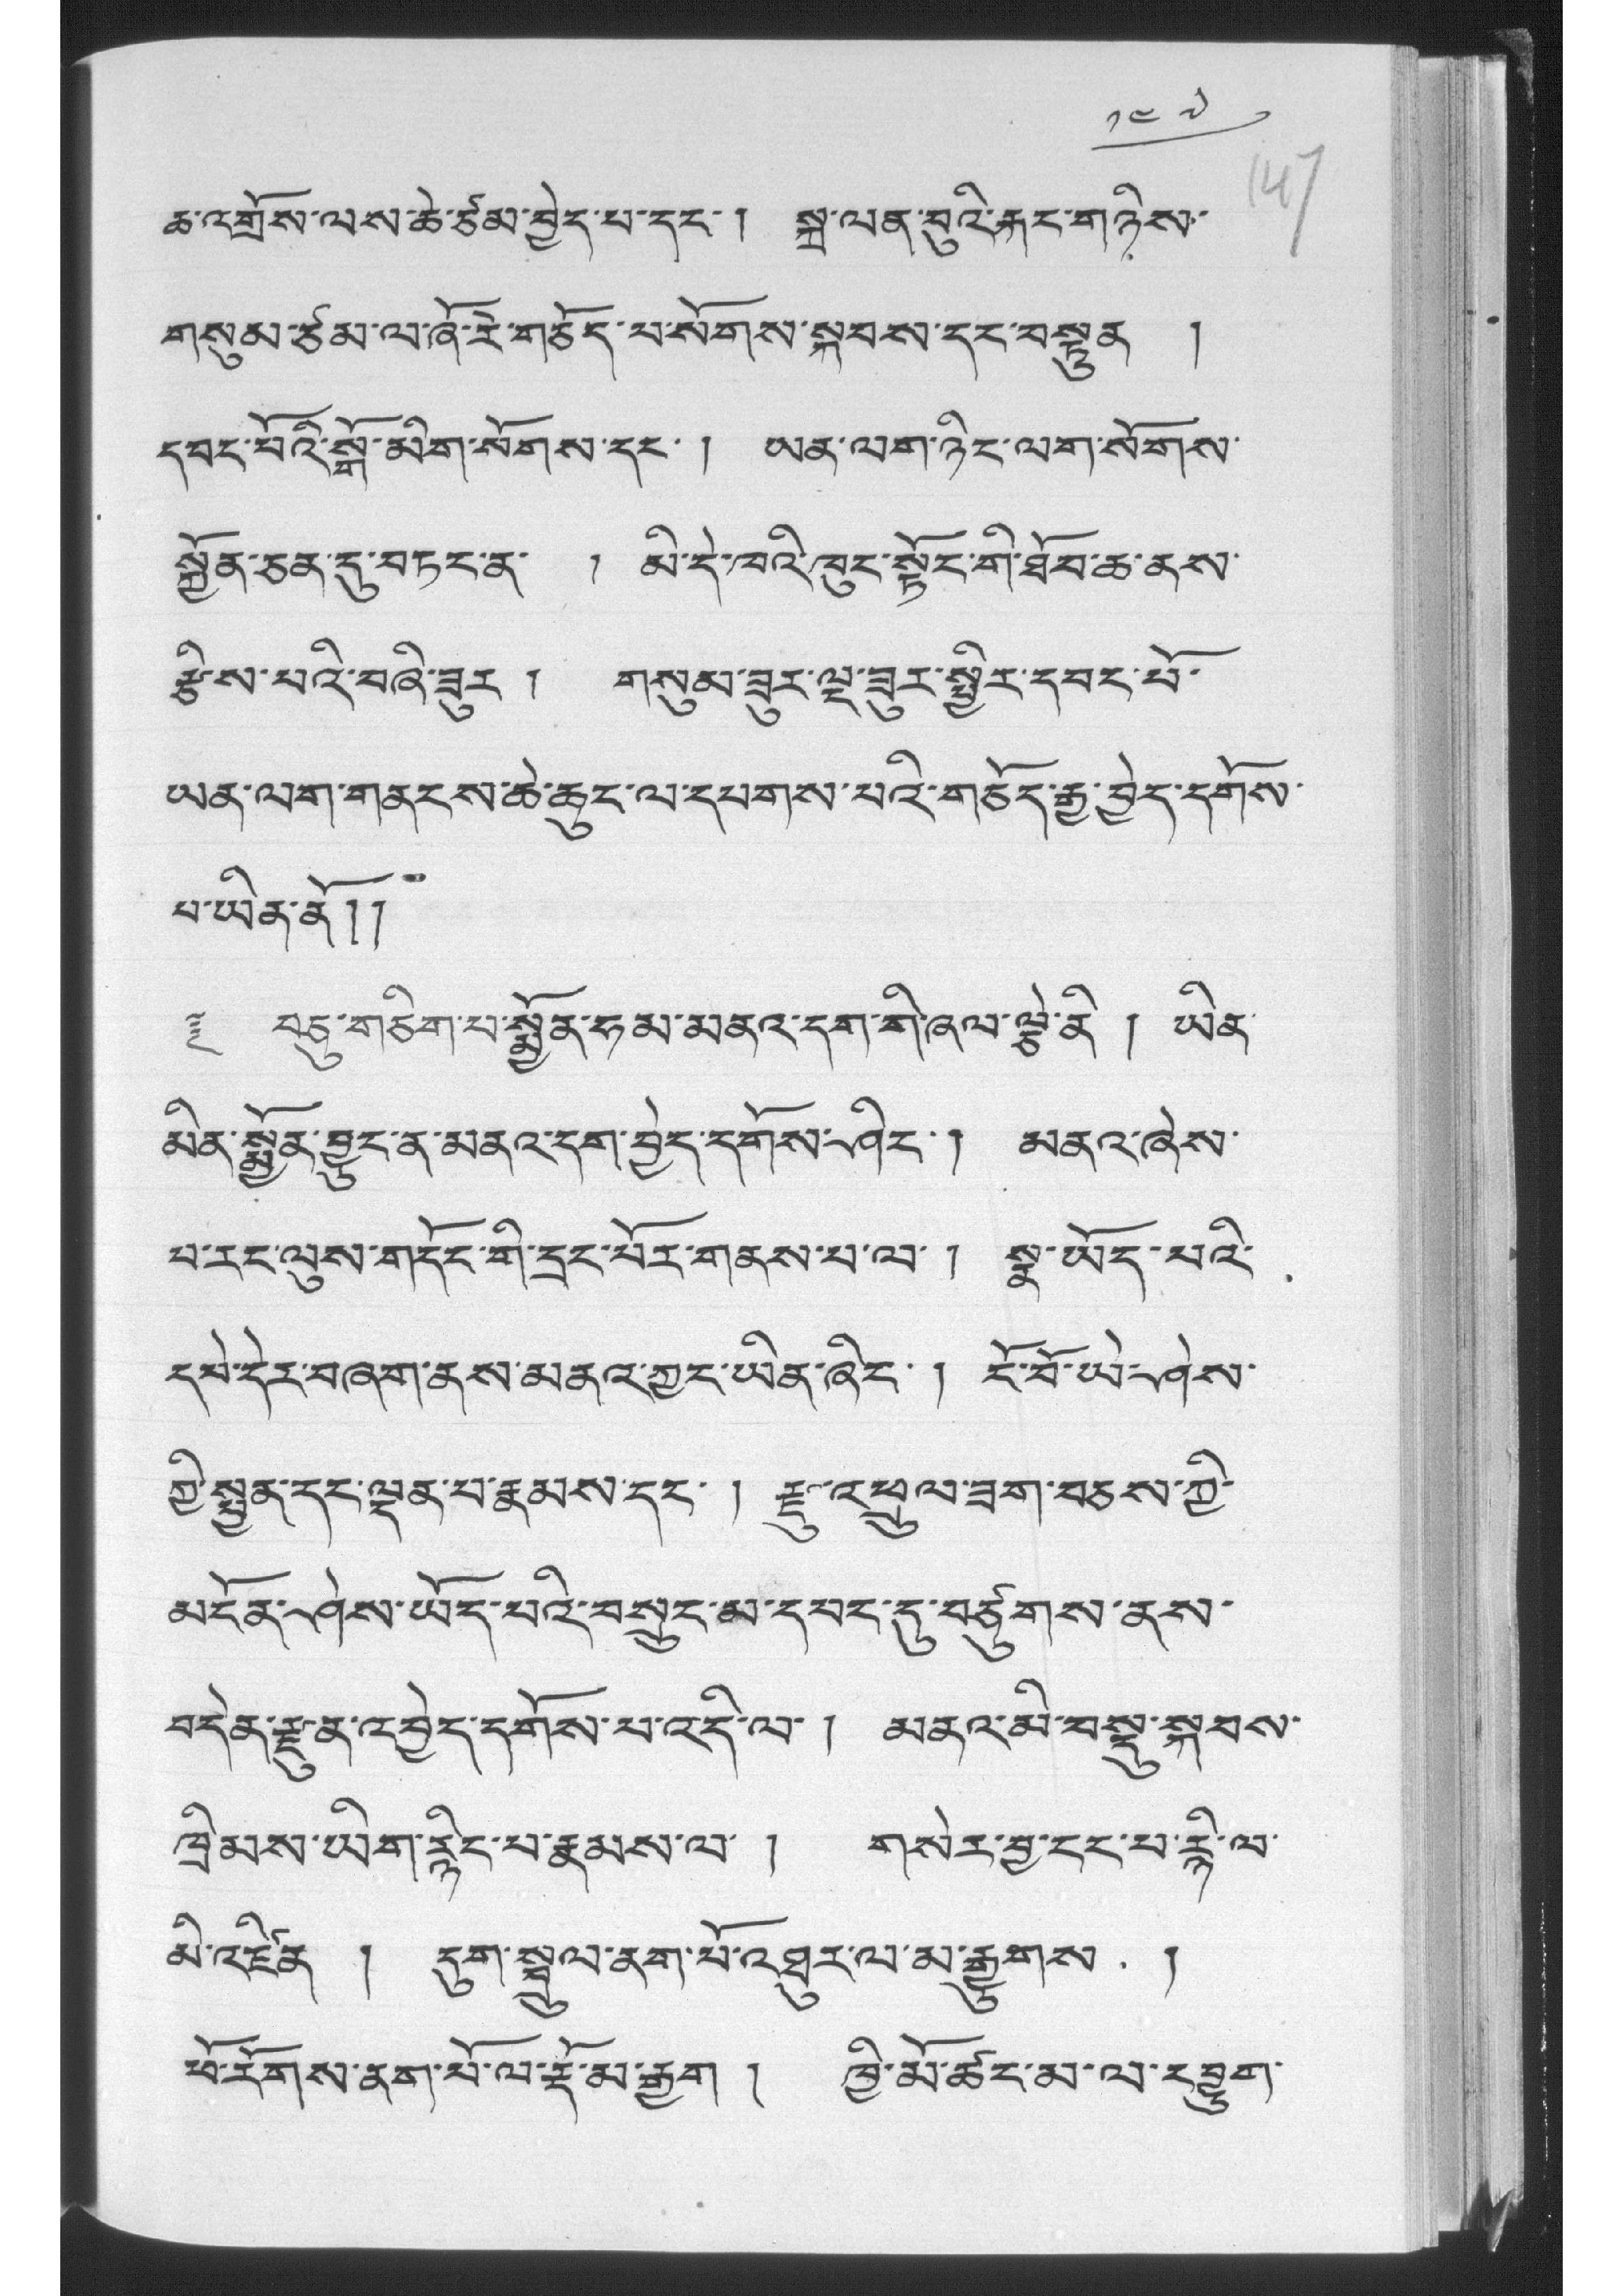༡༤༧
ཆ་འགྲོས་ལས་ཆེ་ཙམ་བྱེད་པ་དང་། སྐྲ་ལན་བུའི་རྐང་གཉིས་
གསུམ་ཙམ་ལ་ཞོ་རེ་གཅོད་པ་སོགས་སྐབས་དང་བསྟུན །
དབང་པོའི་སྒོ་མིག་སོགས་དང་ ། ཡན་ལག་ཉིང་ལག་སོགས་
སྐྱོན་ཅན་དུ་བཏང་ན་ ། མི་དེ་ཁའི་ཁུང་སྟོང་གི་ཐོབ་ཆ་ནས་
རྩིས་པའི་བཞི་ཟུར ། གསུམ་ཟུར་ལྔ་ཟུར་སྤྱིར་དབང་པོ་
ཡན་ལག་གནངས་ཆེ་ཆུང་ལ་དཔགས་པའི་གཅོད་རྒྱུ་བྱེད་དགོས་
པ་ཡིན་ནོ།།
༈ བཅུ་གཅིག་པ་སྨྱོན་ཧམ་མནའ་དག་གི་ཞལ་ལྕེ་ནི ། ཡིན་
མིན་སྨྱོན་བྱུང་ན་མནའ་དག་བྱེད་དགོས་ཤིང་། མནའ་ཞེས་
པ་རང་ལུས་གདོང་གི་དྲང་པོར་གནས་པ་ལ་ ། སྣ་ཡོད་པའི་
དཔེ་དེར་བཞག་ནས་མནའ་ཀྱང་ཡིན་ཞིང་ ། ངོ་བོ་ཡེ་ཤེས་
ཀྱི་སྤྱན་དང་ལྡན་པ་རྣམས་དང་ ། རྫུ་འཕྲུལ་ཟག་བཅས་ཀྱི་
མངོན་ཤེས་ཡོད་པའི་བསྲུང་མ་དཔང་དུ་བཙུགས་ནས་
བདེན་རྫུན་འབྱེད་དགོས་པ་འདི་ལ་ ། མནའ་མི་བསྡུ་སྐབས་
ཁྲིམས་ཡིག་རྙིང་པ་རྣམས་ལ་ ། གསེར་བྱ་ངང་པ་རྙི་ལ་
མི་འཛིན ། དུག་སྦྲུལ་ནག་པོ་འཐུར་ལ་མ་རྒྱུགས །
ཕོ་རོགས་ནག་པོ་ལ་རྡོ་མ་རྒྱག ། ཁྱི་མོ་ཚང་མ་ལ་དབྱུག་
